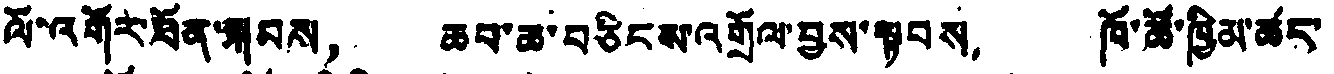ལོ་འགོར་ཐོན་སྐབས， ཆབ་ཆ་བཅིངས་འགྲོལ་བྱས་སྟབས， ཁོ་ཚོ་ཁྱིམ་ཚང་
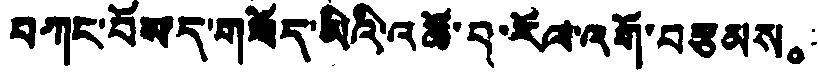བཀང་བོསད་གཟོད་མིའི་འཚོ་བ་རོལ་འགོ་བརྩམས。
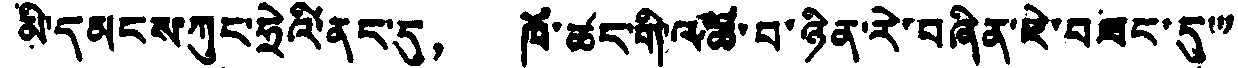མི་དམངས་ཀུང་ཧྲེའི་ནང་དུ， ཁོ་ཚང་གི་འཚོ་བ་ཉིན་རེ་བཞིན་ཇེ་བཟང་དུ་་་
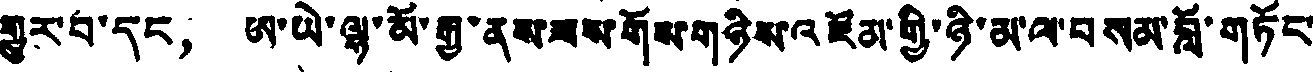གྱུར་བ་དང， ཨ་ཡེ་ལྷ་མོ་རྒྱ་ནས་ཟས་གོས་གཉིས་འཛོམ་གྱི་ཉི་མ་ལ་བསམ་བློ་གཏོང་
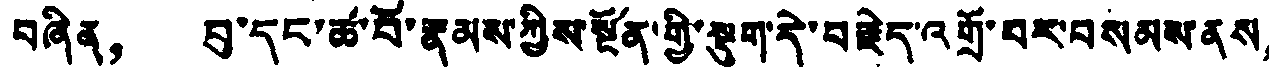བཞིན， བུ་དང་ཚ་བོ་རྣམས་ཀྱིས་སྔོན་གྱི་སྡུག་དེ་བརྗེད་འགྲོ་བར་བསམས་ནས，
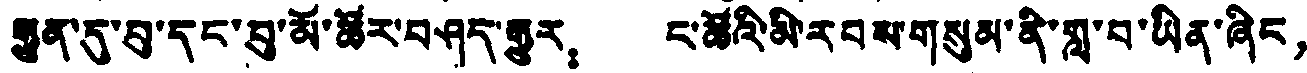རྒྱུན་དུ་བུ་དང་བུ་མོ་ཚོར་བཤད་རྒྱུར： ང་ཚོའི་མི་རབས་གསུམ་ནི་གླ་བ་ཡིན་ཞིང，
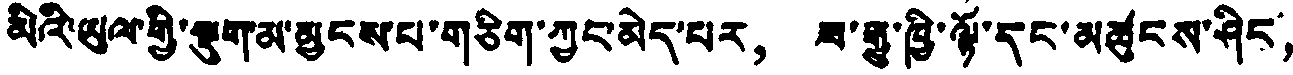མིའི་ཡུལ་གྱི་སྡུག་མ་མྱངས་པ་གཅིག་ཀྱང་མེད་པར， ཟ་རྒྱུ་ཁྱི་ལྟོ་དང་མཚུངས་ཤིང，
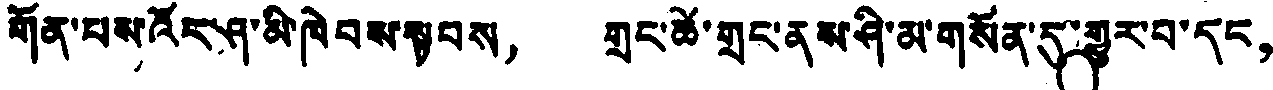གོན་པས་འོང་ཤ་མི་ཁེབས་སྐབས， གྲང་ཚེ་གྲང་ནས་ཤི་མ་གསོན་དུ་གྱུར་བ་དང，
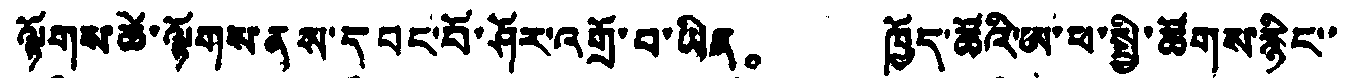ལྟོགས་ཚེ་ལྟོགས་ནས་དབང་པོ་ཤོར་འགྲོ་བ་ཡིན。 ཁྱོད་ཚོའི་ཨ་ཕ་སྤྱི་ཚོགས་རྙིང་་
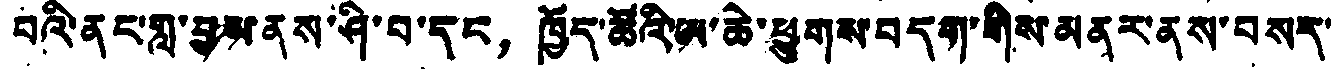བའི་ནང་གླ་བྱས་ནས་ཤི་བ་དང，ཁྱོད་ཚོའི་ཨ་ཆེ་ཕྱུགས་བདག་གིས་མནར་ནས་བསད་
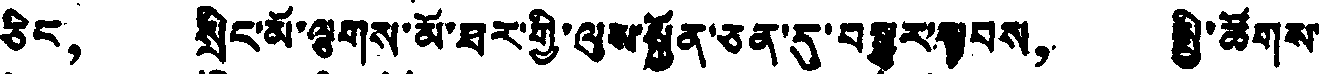ཅིང， སྲིང་མོ་ལྕགས་མོ་ཐར་གྱི་ལུས་སྐྱོན་ཅན་དུ་བསྒྱུར་སྟབས， སྤྱི་ཚོགས་
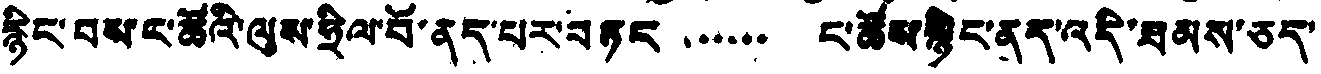རྙིང་བས་ང་ཚོའི་ལུས་ཧྲིལ་པོ་ནད་པར་བཏང ་་་་་་ ང་ཚོས་སྙིང་ནད་འདི་ཐམས་ཅད་
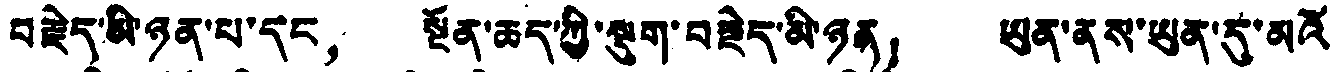བརྗེད་མི་ཉན་པ་དང， སྔོན་ཆད་ཀྱི་སྡུག་བརྗེད་མི་ཉན！ ཡུན་ནས་ཡུན་དུ་མའོ་
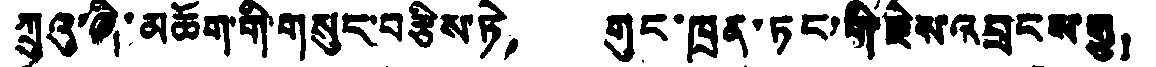ཀྲུའུ་ཞི་མཆོག་གི་གསུང་བརྩིས་ཏེ， གུང་ཁྲན་ཏང་གི་རྗེས་འབྲངས་རྒྱུ！
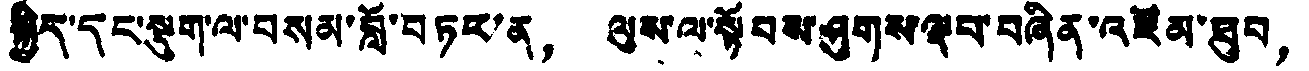སྐྱིད་དང་སྡུག་ལ་བསམ་བློ་བཏང་ན， ལུས་ལ་སྟོབས་ཤུགས་ལྡབ་བཞིན་འཛོམ་ཐུབ，
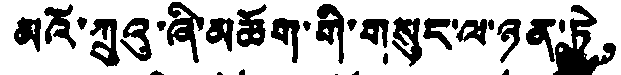མའོ་ཀྲུའུ་ཞི་མཆོག་གི་གསུང་ལ་ཉན་ཏེ，
